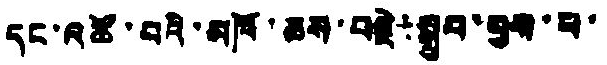དང་འཚོ་བའི་མཁོ་ཆས་བརྗེ་སྒྲུབ་བྱས་པ་
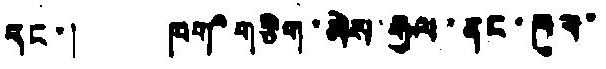དང་། ཁག་གཅིག་མེས་རྒྱལ་ནང་ཁུལ་
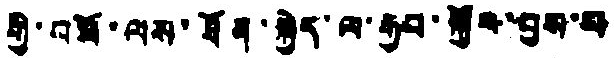གྱི་བཟོ་ལས་ཐོན་སྐྱེད་ལ་རྒྱབ་སྐྱོར་བྱས་པ
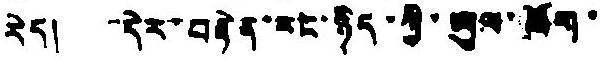རེད། དེར་བརྟེན་རང་ཉིད་ཀྱི་ཡུལ་ཟོག་
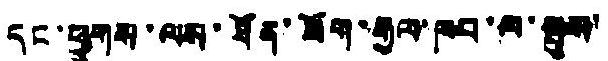དང་ཕྱུགས་ལས་ཐོན་ཟོག་རྒྱལ་ཁབ་ལ་སྤུས་
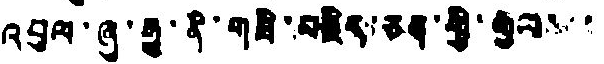འབུལ་ཞུ་རྒྱུ་ནི་གཟི་བརྗིད་ཅན་གྱི་རྒྱལ་་་
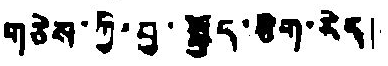གཅེས་ཀྱི་བྱ་སྤྱོད་ཅིག་རེད།
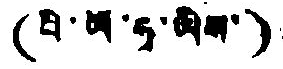(བི་ཡོ་ཧྭ་ཡིས་)
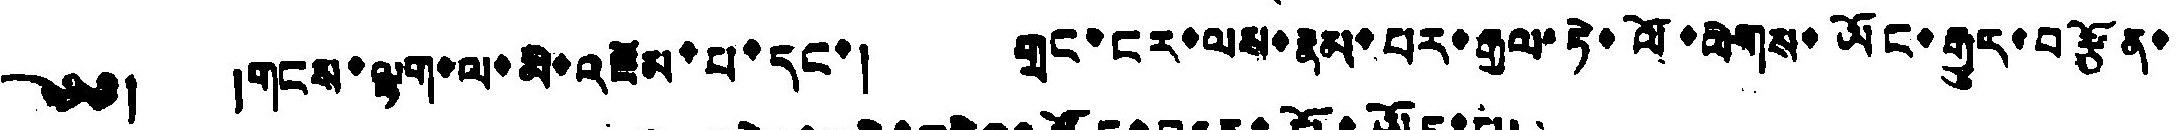༄༅། །གངས་ལྟག་ལ་མི་འཛེམ་པ་དང་། གྲང་ངར་ལས་རྣམ་པར་རྒྱལ་ཏེ་ལོ་ལེགས་ཡོང་རྒྱུར་བརྩོན་
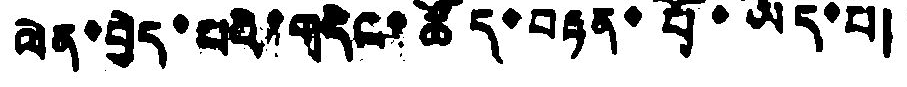ལེན་བྱེད་པའི་གདེང་ཚོད་བརྟན་པོ་ཡོད་པ།
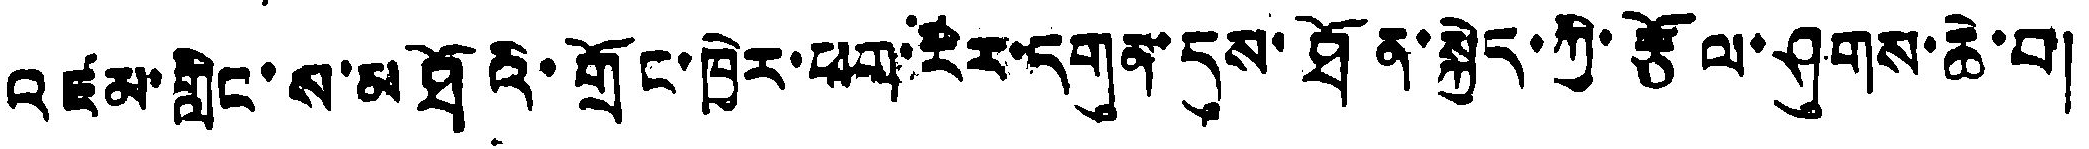འཛམ་གླིང་ས་མཐོའི་གྲོང་ཁྱེར་ཕག་རིར་དགུན་དུས་ཐོན་སྐྱེད་ཀྱི་རྩོལ་ཤུགས་ཆེ་བ།
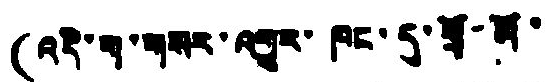(འདི་ག་གསར་འགྱུར་ཁང་དུ་གྲོ་མོ་
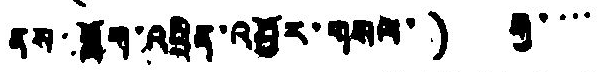ནས་སློག་འཕྲིན་འབྱོར་གསལ་) རྒྱ་་་་
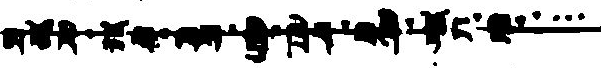མཚོའི་ངོས་ལས་སྤྱི་ཁྲེག་བཞི་སྟོང་ལྔ་་་་་
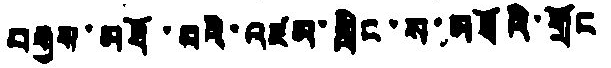བརྒྱས་མཐོ་བའི་འཛམ་གླིང་ས་མཐོའི་གྲོང
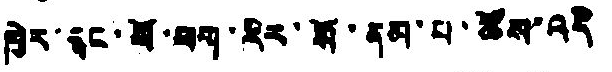ཁྱེར་དང་ལོ་ཕག་རིར་སོ་ནམ་པ་ཚོས་འདི
